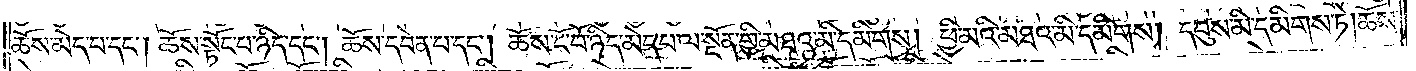ཆོས་མེད་པ་དང༌། ཆོས་སྟོང་པ་ཉིད་དང༌། ཆོས་དབེན་པ་དང༌། ཆོས་ངོ་བོ་ཉིད་མེད་པ་ལ་སྔོན་གྱི་མཐའ་མི་དམིགས། ཕྱི་མའི་མཐའ་མི་དམིགས། དབུས་མི་དམིགས་ཏེ། ཆོས་
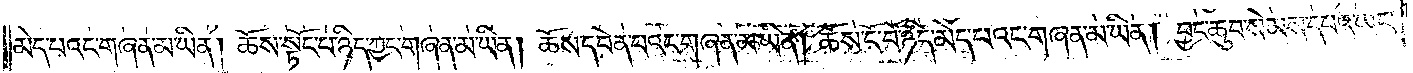མེད་པའང་གཞན་མ་ཡིན། ཆོས་སྟོང་པ་ཉིད་ཀྱང་གཞན་མ་ཡིན། ཆོས་དབེན་པའང་གཞན་མ་ཡིན། ཆོས་ངོ་བོ་ཉིད་མེད་པའང་གཞན་མ་ཡིན། བྱང་ཆུབ་སེམས་དཔའ་ཡང་
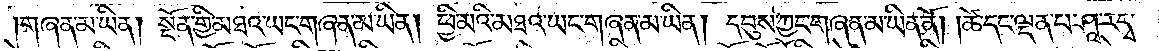གཞན་མ་ཡིན། སྔོན་གྱི་མཐའ་ཡང་གཞན་མ་ཡིན། ཕྱི་མའི་མཐའ་ཡང་གཞན་མ་ཡིན། དབུས་ཀྱང་གཞན་མ་ཡིན་ནོ། །ཚེ་དང་ལྡན་པ་ཤཱ་རདྭ་
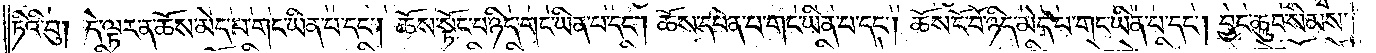ཏིའི་བུ། དེ་ལྟར་ན་ཆོས་མེད་པ་གང་ཡིན་པ་དང༌། ཆོས་སྟོང་པ་ཉིད་གང་ཡིན་པ་དང༌། ཆོས་དབེན་པ་གང་ཡིན་པ་དང༌། ཆོས་ངོ་བོ་ཉིད་མེད་པ་གང་ཡིན་པ་དང༌། བྱང་ཆུབ་སེམས་
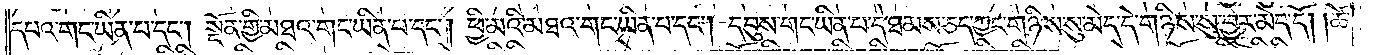དཔའ་གང་ཡིན་པ་དང༌། སྔོན་གྱི་མཐའ་གང་ཡིན་པ་དང༌། ཕྱི་མའི་མཐའ་གང་ཡིན་པ་དང༌། དབུས་གང་ཡིན་པ་དེ་ཐམས་ཅད་ཀྱང་གཉིས་སུ་མེད་དེ་གཉིས་སུ་བྱར་མེད་དོ། །ཚེ་
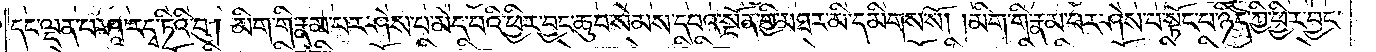དང་ལྡན་པ་ཤཱ་རདྭ་ཏིའི་བུ། མིག་གི་རྣམ་པར་ཤེས་པ་མེད་པའི་ཕྱིར་བྱང་ཆུབ་སེམས་དཔའ་སྔོན་གྱི་མཐར་མི་དམིགས་སོ། །མིག་གི་རྣམ་པར་ཤེས་པ་སྟོང་པ་ཉིད་ཀྱི་ཕྱིར་བྱང་
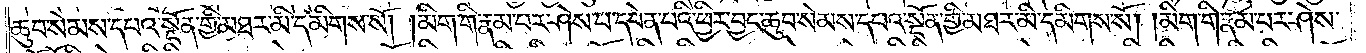ཆུབ་སེམས་དཔའ་སྔོན་གྱི་མཐར་མི་དམིགས་སོ། །མིག་གི་རྣམ་པར་ཤེས་པ་དབེན་པའི་ཕྱིར་བྱང་ཆུབ་སེམས་དཔའ་སྔོན་གྱི་མཐར་མི་དམིགས་སོ། །མིག་གི་རྣམ་པར་ཤེས་
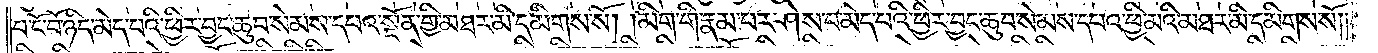པ་ངོ་བོ་ཉིད་མེད་པའི་ཕྱིར་བྱང་ཆུབ་སེམས་དཔའ་སྔོན་གྱི་མཐར་མི་དམིགས་སོ། །མིག་གི་རྣམ་པར་ཤེས་པ་མེད་པའི་ཕྱིར་བྱང་ཆུབ་སེམས་དཔའ་ཕྱི་མའི་མཐར་མི་དམིགས་སོ༎
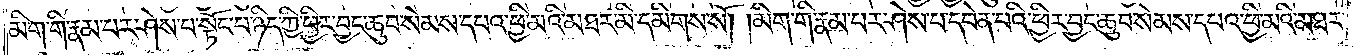མིག་གི་རྣམ་པར་ཤེས་པ་སྟོང་པ་ཉིད་ཀྱི་ཕྱིར་བྱང་ཆུབ་སེམས་དཔའ་ཕྱི་མའི་མཐར་མི་དམིགས་སོ། །མིག་གི་རྣམ་པར་ཤེས་པ་དབེན་པའི་ཕྱིར་བྱང་ཆུབ་སེམས་དཔའ་ཕྱི་མའི་མཐར་
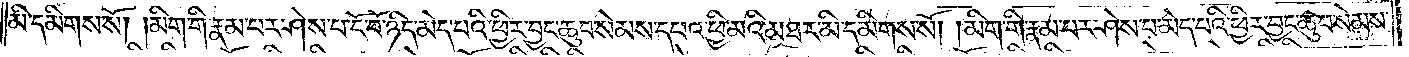མི་དམིགས་སོ། །མིག་གི་རྣམ་པར་ཤེས་པ་ངོ་བོ་ཉིད་མེད་པའི་ཕྱིར་བྱང་ཆུབ་སེམས་དཔའ་ཕྱི་མའི་མཐར་མི་དམིགས་སོ། །མིག་གི་རྣམ་པར་ཤེས་པ་མེད་པའི་ཕྱིར་བྱང་ཆུབ་སེམས་
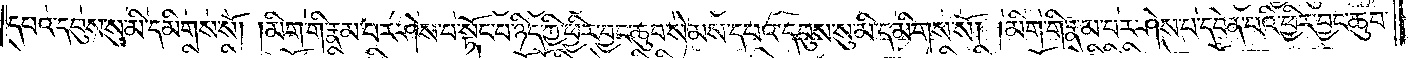དཔའ་དབུས་སུ་མི་དམིགས་སོ། །མིག་གི་རྣམ་པར་ཤེས་པ་སྟོང་པ་ཉིད་ཀྱི་ཕྱིར་བྱང་ཆུབ་སེམས་དཔའ་དབུས་སུ་མི་དམིགས་སོ། །མིག་གི་རྣམ་པར་ཤེས་པ་དབེན་པའི་ཕྱིར་བྱང་ཆུབ་
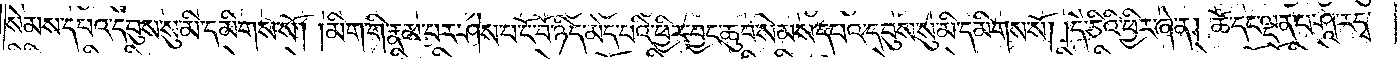སེམས་དཔའ་དབུས་སུ་མི་དམིགས་སོ། །མིག་གི་རྣམ་པར་ཤེས་པ་ངོ་བོ་ཉིད་མེད་པའི་ཕྱིར་བྱང་ཆུབ་སེམས་དཔའ་དབུས་སུ་མི་དམིགས་སོ། །དེ་ཅིའི་ཕྱིར་ཞེ་ན། ཚེ་དང་ལྡན་པ་ཤཱ་རདྭ་
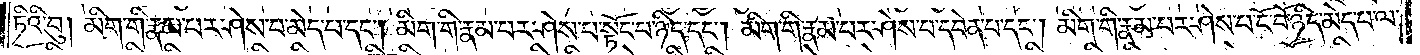ཏིའི་བུ། མིག་གི་རྣམ་པར་ཤེས་པ་མེད་པ་དང༌། མིག་གི་རྣམ་པར་ཤེས་པ་སྟོང་པ་ཉིད་དང༌། མིག་གི་རྣམ་པར་ཤེས་པ་དབེན་པ་དང༌། མིག་གི་རྣམ་པར་ཤེས་པ་ངོ་བོ་ཉིད་མེད་པ་ལ་
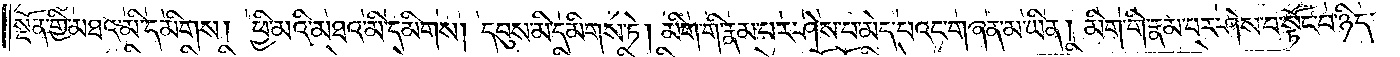སྔོན་གྱི་མཐའ་མི་དམིགས། ཕྱི་མའི་མཐའ་མི་དམིགས། དབུས་མི་དམིགས་ཏེ། མིག་གི་རྣམ་པར་ཤེས་པ་མེད་པའང་གཞན་མ་ཡིན། མིག་གི་རྣམ་པར་ཤེས་པ་སྟོང་པ་ཉིད་
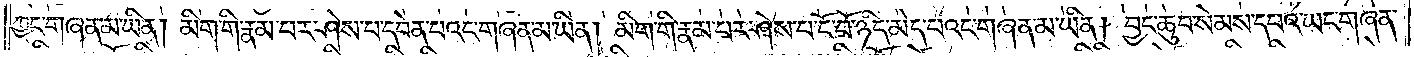ཀྱང་གཞན་མ་ཡིན། མིག་གི་རྣམ་པར་ཤེས་པ་དབེན་པའང་གཞན་མ་ཡིན། མིག་གི་རྣམ་པར་ཤེས་པ་ངོ་བོ་ཉིད་མེད་པའང་གཞན་མ་ཡིན། བྱང་ཆུབ་སེམས་དཔའ་ཡང་གཞན་
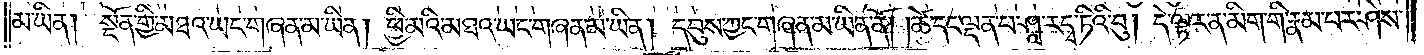མ་ཡིན། སྔོན་གྱི་མཐའ་ཡང་གཞན་མ་ཡིན། ཕྱི་མའི་མཐའ་ཡང་གཞན་མ་ཡིན། དབུས་ཀྱང་གཞན་མ་ཡིན་ནོ། །ཚེ་དང་ལྡན་པ་ཤཱ་རདྭ་ཏིའི་བུ། དེ་ལྟར་ན་མིག་གི་རྣམ་པར་ཤེས་
